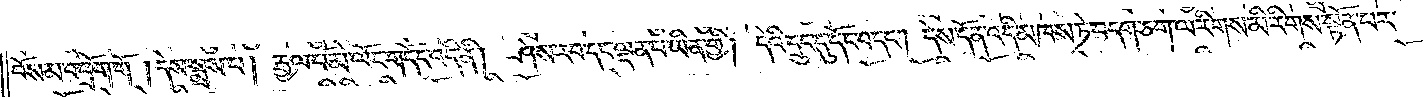བོས་མ་འཕྲོག་གོ །དེས་སྨྲས་པ། རྒྱལ་པོ་མེ་ལོང་གདོང་འདི་ནི། ཤེས་རབ་དང་ལྡན་པ་ཡིན་གྱི། དེའི་དྲུང་དུ་དོང་བ་དང༌། དེས་དོན་འདི་མཁས་ཏེ་བདག་ཅག་ལ་རིགས་མི་རིགས་སྟོན་པར་
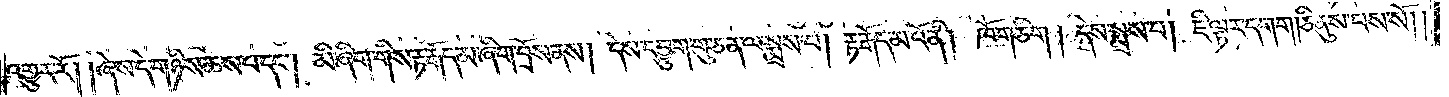འགྱུར་རོ། །ཞེས་དེ་གཉིས་ཆས་པ་དང༌། མི་ཞིག་གིས་རྟ་རྒོད་མ་ཞིག་བྲོས་ནས། དེས་དབྱུག་གུ་ཅན་ལ་སྨྲས་པ། རྟ་རྒོད་མ་འོ་ནི། ཁོ་ག་ཅིག །དེས་སྨྲས་པ། ཇི་ལྟར་དགག །ཅི་ནུས་པས་སོ།
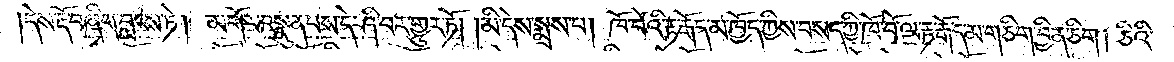དེས་རྡོ་བ་ཞིག་བླངས་ཏེ། མགོར་བསྣུན་པས་དེ་ཤི་བར་གྱུར་ཏོ། །མི་དེས་སྨྲས་པ། ཁོ་བོའི་རྟ་རྒོད་མ་ཁྱོད་ཀྱིས་བསད་ཀྱི་ཁོ་བོ་ལ་རྟ་རྒོད་མ་གཅིག་བྱིན་ཅིག །ཅིའི་
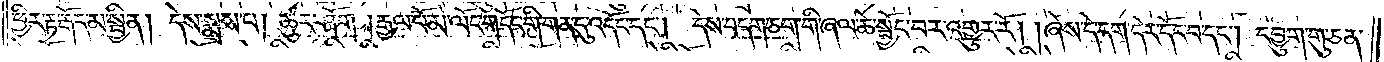ཕྱིར་རྟ་རྒོད་མ་སྦྱིན། དེས་སྨྲས་པ། ཚུར་ཤོག །རྒྱལ་པོ་མེ་ལོང་གདོང་གི་གན་དུ་འདོང་དང༌། དེས་བདག་ཅག་གི་ཞལ་ཆེ་སྦྱོང་བར་འགྱུར་རོ། །ཞེས་དེ་དག་དེར་དོང་བ་དང༌། དབྱུག་གུ་ཅན་
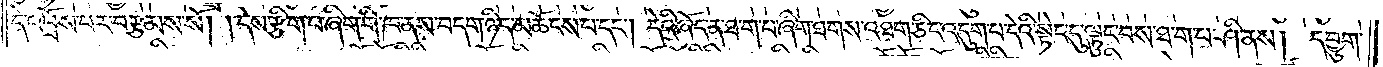དེ་འབྲོས་པར་བརྩམས་སོ། །དེས་རྩིག་པ་ཞིག་གི་ཁ་ནས་བདག་ཉིད་མཆོངས་པ་དང༌། དེའི་ཞོད་ན་ཐ་ག་པ་ཞིག་ཐགས་འཐག་ཅིང་འདུག་པ་དེའི་སྟེང་དུ་ལྟུང་བས་ཐ་ག་པ་ཤི་ནས། དབྱུག་
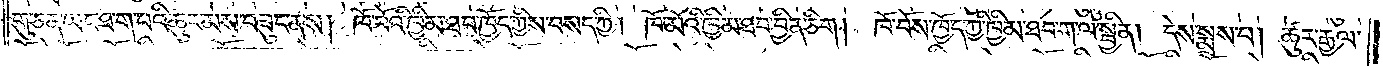གུ་ཅན་ཡང་ཐ་ག་པའི་ཆུང་མས་བཟུང་ནས། ཁོ་བོའི་ཁྱིམ་ཐབ་ཁྱོད་ཀྱིས་བསད་ཀྱི། ཁོ་མོའི་ཁྱིམ་ཐབ་བྱིན་ཅིག །ཁོ་བོས་ཁྱོད་ཀྱི་ཁྱིམ་ཐབ་ག་ལ་སྦྱིན། དེས་སྨྲས་པ། ཚུར་རྒྱལ་
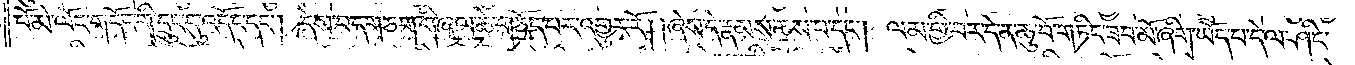པོ་མེ་ལོང་གདོང་གི་དྲུང་དུ་འདོང་དང༌། དེས་བདག་ཅག་གི་ཞལ་ཆེ་གཅོད་པར་འགྱུར་རོ། །ཞེས་དེ་རྣམས་ཆས་པ་དང༌། ལམ་གྱི་བར་དེ་ན་ཆུ་བོ་གཏིང་ཟབ་མོ་ཞིག་ཡོད་པ་དེ་ལ་ཤིང་
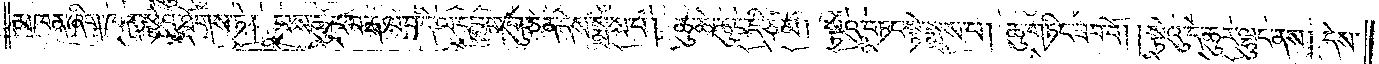མཁན་ཞིག་ཁ་ན་སྟེའུ་ཐོགས་ཏེ། ཕས་ཚུར་བརྒལ་བ་དེ་ལ་དབྱུག་གུ་ཅན་དེས་སྨྲས་པ། ཆུ་ཆེ་ཆུང་ཇི་ཙམ། སྟེའུ་བཏང་སྟེ་སྨྲས་པ། ཆུ་གཏིང་ཟབ་བོ། །སྟེའུ་དེ་ཆུར་ལྷུང་ནས། དེས་
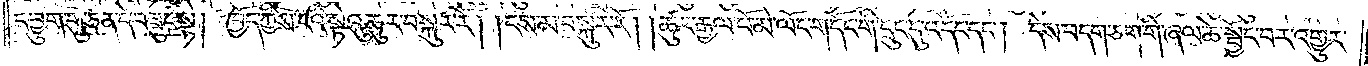དབྱུག་གུ་ཅན་ད་བཟུང་སྟེ། ཁྱོད་ཀྱིས་བའི་སྟེའུ་ཆུར་བསྐུར་རོ། །ངས་མ་བསྐུར་རོ། །ཚུར་རྒྱལ་པོ་མེ་ལོང་གདོང་གི་དྲུང་དུ་འདོང་དང༌། དེས་བདག་ཅག་གི་ཞལ་ཆེ་སྦྱོང་བར་འགྱུར་
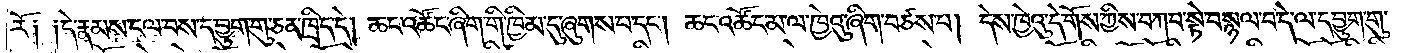རོ༑ ༑དེ་རྣམས་ངལ་བས་དབྱུག་གུ་ཅན་ཁྲིད་དེ། ཆང་འཚོང་ཞིག་གི་ཁྱིམ་དུ་ཞུགས་པ་དང༌། ཆང་འཚོང་མ་ལ་ཁྱེའུ་ཞིག་བཙས་པ། དེས་ཁྱེའུ་དེ་གོས་ཀྱིས་བཀབ་སྟེ་བསྙལ་བ་དེ་ལ་དབྱུག་གུ་
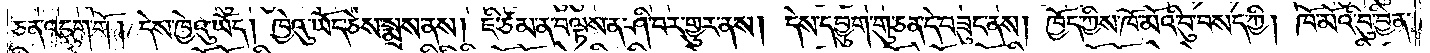ཅན་འདུག་གོ །དེས་ཁྱེའུ་ཡོད། ཁྱེའུ་ཡོད་ཅེས་སྨྲས་ནས། ཇི་ཙམ་ན་བལྟས་ན་ཤི་བར་གྱུར་ནས། དེས་དབྱུག་གུ་ཅན་དེ་བཟུང་ནས། ཁྱོད་ཀྱིས་ཁོ་མོའི་བུ་བསད་ཀྱི། ཁོ་མོའི་བུ་བྱིན་
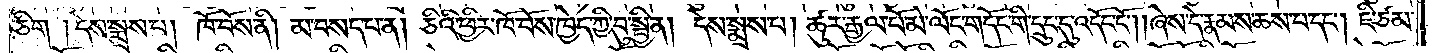ཅིག །དེས་སྨྲས་པ། ཁོ་བོས་ནི། མ་བསད་པ་ན། ཅིའི་ཕྱིར་ཁོ་བོས་ཁྱེད་ཀྱི་བུ་སྦྱིན། དེས་སྨྲས་པ། ཚུར་རྒྱལ་པོ་མེ་ལོང་གདོང་གི་དྲུང་དུ་འདོང་ངོ༌། །ཞེས་དེ་རྣམས་ཆས་པ་དང༌། ཇི་ཙམ་
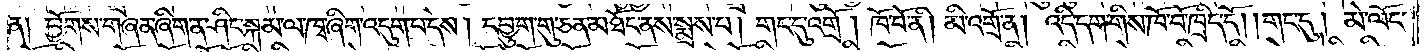ན༑ ཕྱོགས་གཞན་ཞིག་ན་ཤིང་སྐམ་ལ་ཁྭ་ཞིག་འདུག་པ་དེས། དབྱུག་གུ་ཅན་མཐོང་ནས་སྨྲས་པ། གང་དུ་འགྲོ། ཁོ་བོ་ནི། མི་འགྲོ་ན། འདི་དག་གིས་ཁོ་བོ་ཁྲིད་དོ། །གང་དུ། མེ་ལོང་
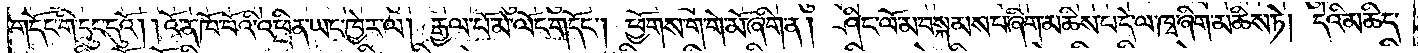གདོང་གི་དྲུང་དུའོ། །འོ་ན་ཁོ་བོའི་འཕྲིན་ཡང་ཁྱེར་ལ། རྒྱལ་པོ་མེ་ལོང་གདོང༌། ཕྱོགས་ག་གེ་མོ་ཞིག་ན། ཤིང་ལོ་མ་བསྐམས་པ་ཞིག་མཆིས་པ་དེ་ལ་ཁྭ་ཞིག་མཆིས་ཏེ། དེའི་མཆིད་
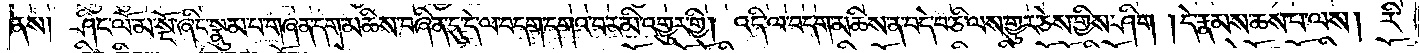ནས། ཤིང་ལོ་མ་སྔོ་ཞིང་སྣུམ་པ་གཞན་དག་མཆིས་བཞིན་དུ་དེ་ལ་བདག་དགའ་བར་མི་འགྱུར་གྱི། འདི་ལ་བདག་མཆིས་ན་བདེ་བ་ཅི་ལས་གྱུར་ཅེས་གྱིས་ཤིག །དེ་རྣམས་ཆས་པ་ལས། རི་
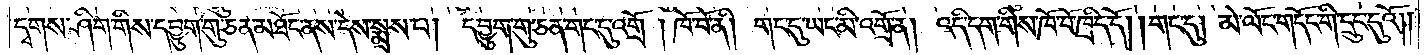དྭགས་ཤིག་གིས་དབྱུག་གུ་ཅན་མཐོང་ནས་དེས་སྨྲས་པ། དབྱུག་གུ་ཅན་གང་དུ་འགྲོ། ཁོ་བོ་ནི། གང་དུ་ཡང་མི་འགྲོ་ན། འདི་དག་གིས་ཁོ་བོ་ཁྲིད་དོ། །གང་དུ། མེ་ལོང་གདོང་གི་དྲུང་དུའོ༎
